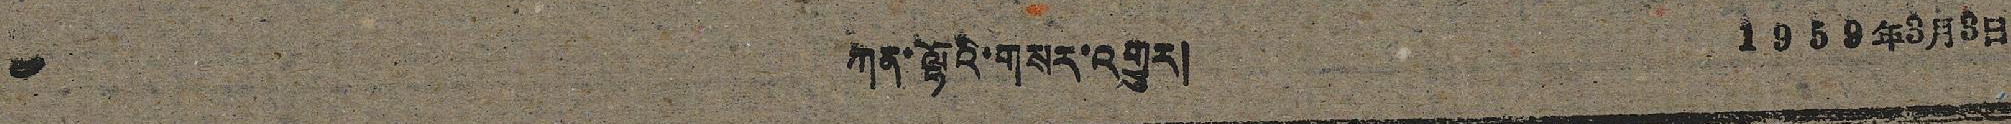༤ ཀན་ལྷོའི་གསར་འགྱུར། 1959年3月3日
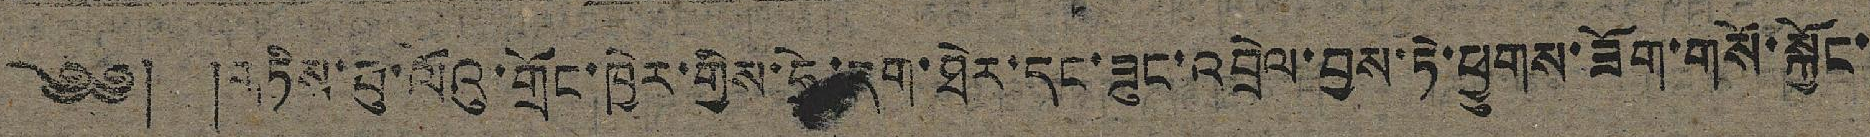༄༅། །གཏིས་བུ་ལོའུ་གྲོང་ཁྱེར་གྱིས་ཧྲེ་དག་ཐེར་དང་ཟུང་འབྲེལ་བྱས་ཏེ་ཕྱུགས་ཟོག་གསོ་སྐྱོང་
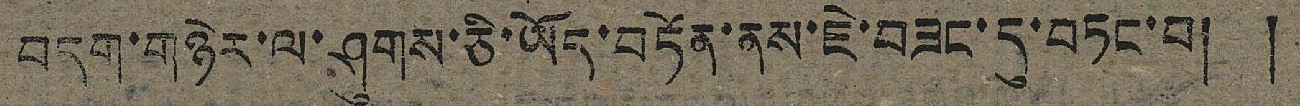བདག་གཉེར་ལ་ཤུགས་ཅི་ཡོད་བཏོན་ནས་ཇེ་བཟང་དུ་བཏང་བ། །
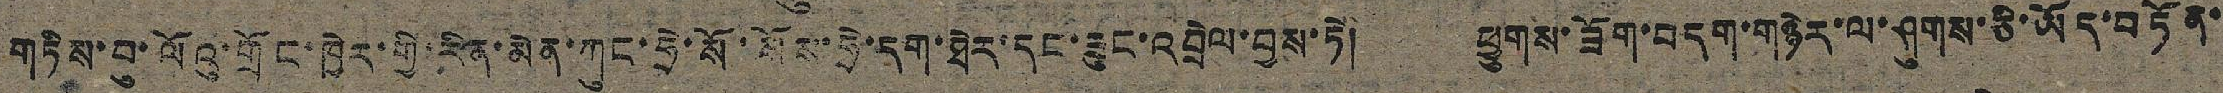གཏིས་བུ་ལོའུ་གྲོང་ཁྱེར་གྱི་རིན་མིན་ཀུང་ཧྲེ་སོ་སོས་ཧྲེ་དག་ཐེར་དང་ཟུང་འབྲེལ་བྱས་ཏེ། ཕྱུགས་ཟོག་བདག་གཉེར་ལ་ཤུགས་ཅི་ཡོད་བཏོན་
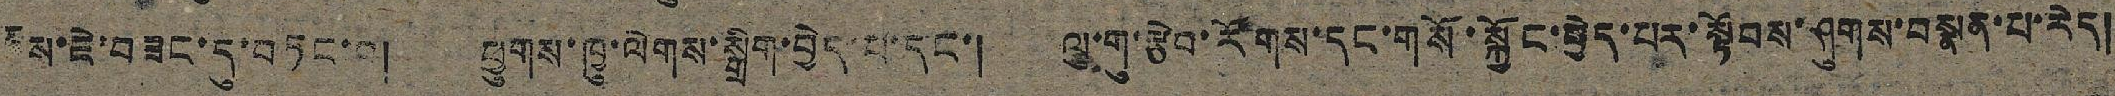བས་ཇེ་བཟང་དུ་བཏང་བ། ཕྱུགས་ཁྱུ་ལེགས་སྒྲིག་བྱེད་པ་དང་། ལུ་གུ་རྩེབ་རོགས་དང་གསོ་སྐྱོང་བྱེད་པར་སྟོབས་ཤུགས་བསྣན་པ་རེད།
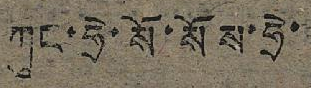ཀུང་ཧྲེ་སོ་སོས་ཧྲེ་
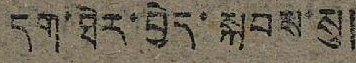དག་ཐེར་བྱེད་སྐབས་སུ།
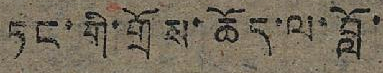ཏང་གི་གྲོས་ཆོད་ལ་བློ་
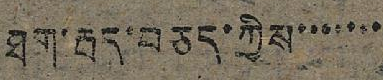ཐག་རྦད་བཅད་ཀྱིས་་་་་་་
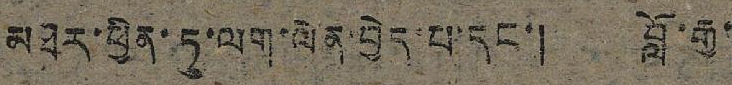མཐར་ཕྱིན་ཏུ་ལག་ལེན་བྱེད་པ་དང་། བློ་རྒྱ་
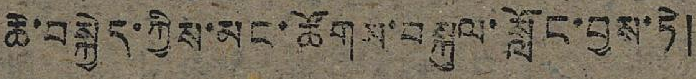ཆེ་བསྐྱེད་ཀྱིས་མང་ཚོགས་བསྐུལ་སློང་བྱས་ཏེ།
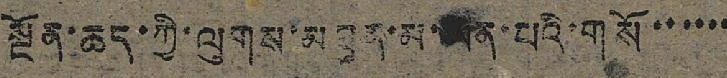སྔོན་ཆད་ཀྱི་ལུགས་མཐུན་མ་ཡིན་པའི་གསོ་་་་་་
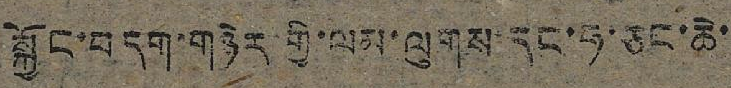སྐྱོང་བདག་གཉེར་གྱི་ལམ་ལུགས་དང་ཧ་ཅང་ཆེ་
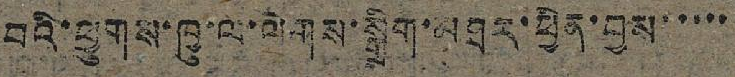བའི་ཕྱུགས་ཁྱུ་ལ་ལེགས་སྒྲིག་མཐར་ཕྱིན་བྱས་་་་་
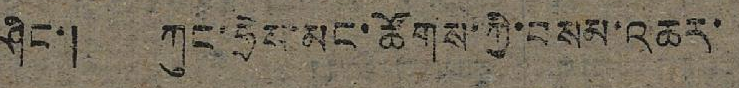ཤིང་། ཀུང་ཧྲེས་མང་ཚོགས་ཀྱི་བསམ་འཆར་
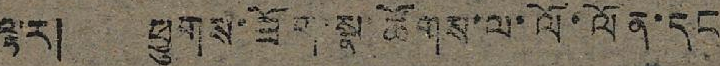ལྟར། ཕྱུགས་ཟོག་སྣ་ཚོགས་ལ་ལོ་ལོན་དང
